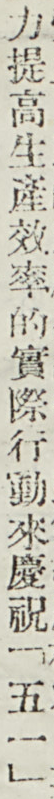力提高生產效率的實際行動來慶祝「五一」
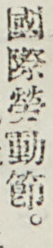國際勞動節。
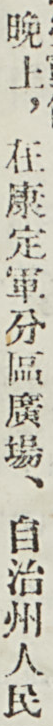晚上，在康定軍分區廣場、自治州人民
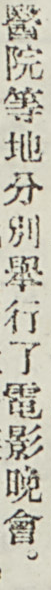醫院等地分別舉行了電影晚會。
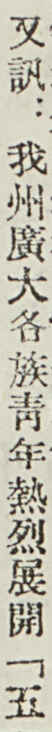又訊：我州廣大各族靑年熱烈展開「五
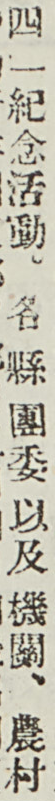四」紀念活動。各縣團委以及機關、農村
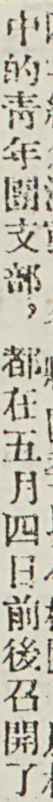中的靑年團支部，都在五月四日前後召開了
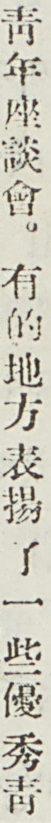靑年座談會。有的地方表揚了一些優秀靑
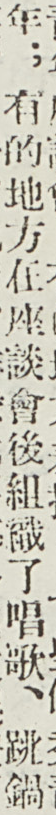年；有的地方在座談會後組織了唱歌、跳鍋
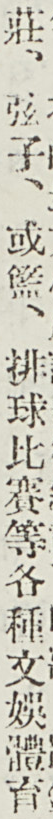莊、弦子、或籃、排球比賽等各種文娛體育
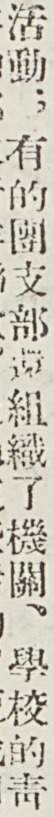活動；有的團支部還組織了機關、學校的靑
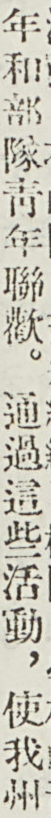年和部隊靑年聯歡。通過這些活動，使我州
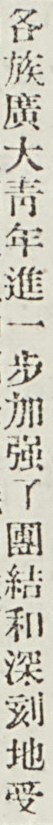各族廣大靑年進一步加強了團結和深刻地受
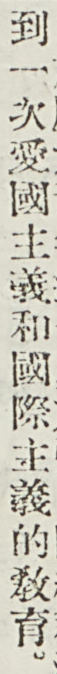到一次愛國主義和國際主義的敎育。
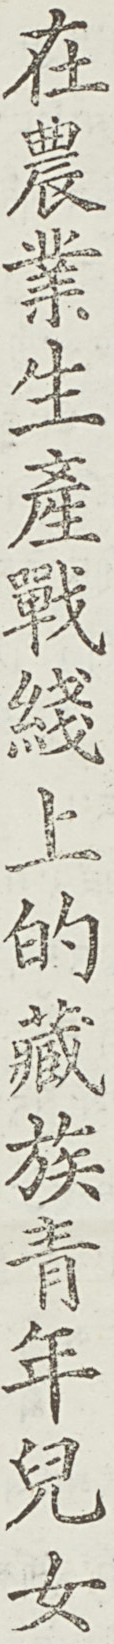在農業生產戰綫上的藏族靑年兒女
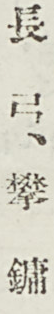長 弓、攀 鏞
